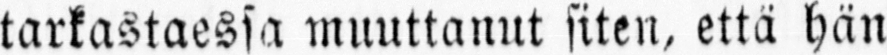tarkastaessa muuttanut siten, että hän
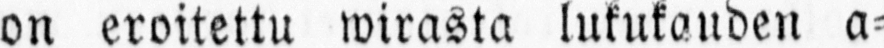on eroitettu wirasta lukukauden a-
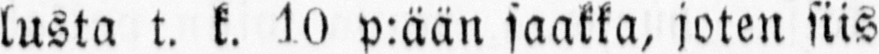lusta t. k. 10 p:ään saakka, joten siis
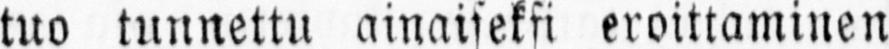tuo tunnettu ainaiseksi eroittaminen
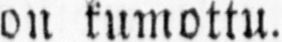on kumottu.
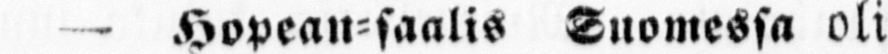— Hopean-saalis Suomessa oli
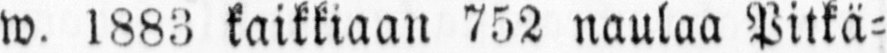w. 1883 kaikkiaan 752 naulaa Pitkä-
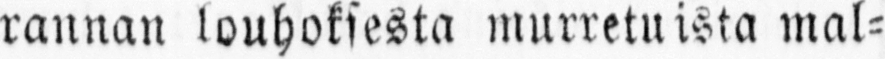rannan louhoksesta murretuista mal-
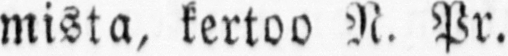mista, kertoo N. Pr.
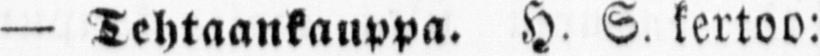— Tehtaankauppa. H. S. kertoo:
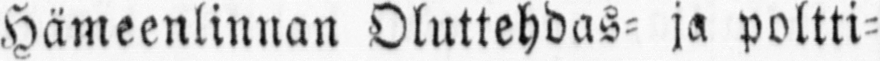Hämeenlinnan Oluttehdas- ja poltti-
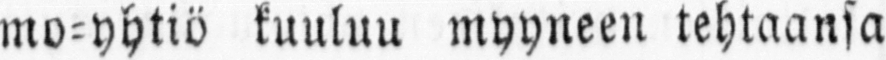mo-yhtiö kuuluu myyneen tehtaansa
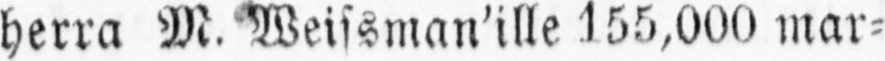herra M. Weissman'ille 155,000 mar-
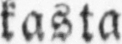kasta.
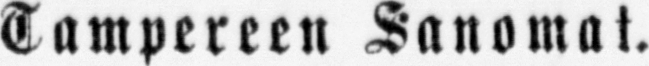Tampereen Sanomat.
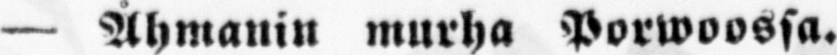— Ähmanin murha Porwoossa.
